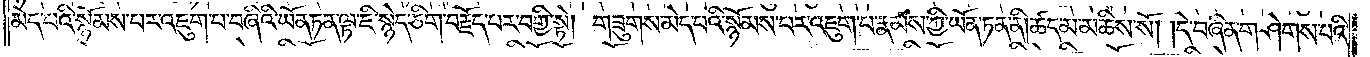མེད་པའི་སྙོམས་པར་འཇུག་པ་བཞིའི་ཡོན་ཏན་ལྟ་ཇི་སྙེད་ཅིག་བརྗོད་པར་བགྱི་སྟེ། གཟུགས་མེད་པའི་སྙོམས་པར་འཇུག་པ་རྣམས་ཀྱི་ཡོན་ཏན་ནི།ཚད་མ་མཆིས་སོ། །དེ་བཞིན་གཤེགས་པའི་
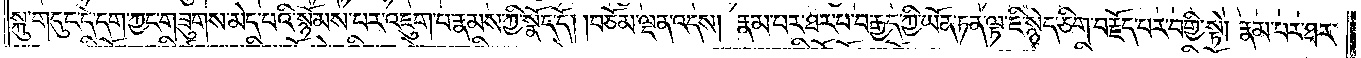སྐུ་གདུང་དེ་དག་ཀྱང་གཟུགས་མེད་པའི་སྙོམས་པར་འཇུག་པ་རྣམས་ཀྱི་སྣོད་དོ། །བཅོམ་ལྡན་འདས། རྣམ་པར་ཐར་པ་བརྒྱད་ཀྱི་ཡོན་ཏན་ལྟ་ཇི་སྙེད་ཅིག་བརྗོད་པར་བགྱི་སྟེ། རྣམ་པར་ཐར་
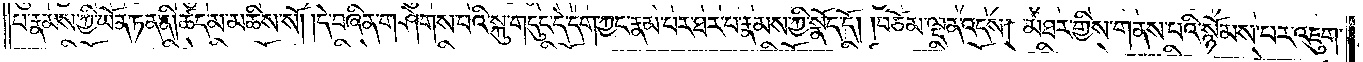པ་རྣམས་ཀྱི་ཡོན་ཏན་ནི།ཚད་མ་མཆིས་སོ། །དེ་བཞིན་གཤེགས་པའི་སྐུ་གདུང་དེ་དག་ཀྱང་རྣམ་པར་ཐར་པ་རྣམས་ཀྱི་སྣོད་དོ། །བཅོམ་ལྡན་འདས། མཐར་གྱིས་གནས་པའི་སྙོམས་པར་འཇུག་
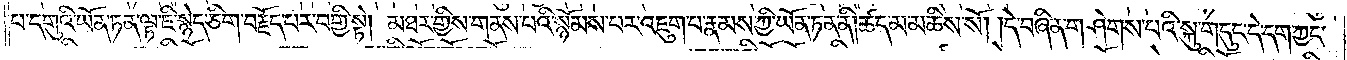པ་དགུའི་ཡོན་ཏན་ལྟ་ཇི་སྙེད་ཅིག་བརྗོད་པར་བགྱི་སྟེ། མཐར་གྱིས་གནས་པའི་སྙོམས་པར་འཇུག་པ་རྣམས་ཀྱི་ཡོན་ཏན་ནི།ཚད་མ་མཆིས་སོ། །དེ་བཞིན་གཤེགས་པའི་སྐུ་གདུང་དེ་དག་ཀྱང་
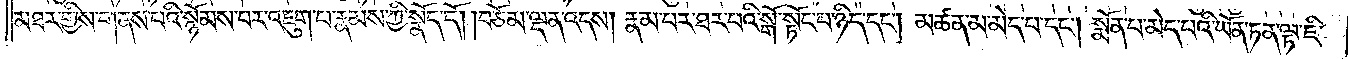མཐར་གྱིས་གནས་པའི་སྙོམས་པར་འཇུག་པ་རྣམས་ཀྱི་སྣོད་དོ། །བཅོམ་ལྡན་འདས། རྣམ་པར་ཐར་པའི་སྒོ་སྟོང་པ་ཉིད་དང༌། མཚན་མ་མེད་པ་དང༌། སྨོན་པ་མེད་པའི་ཡོན་ཏན་ལྟ་ཇི་
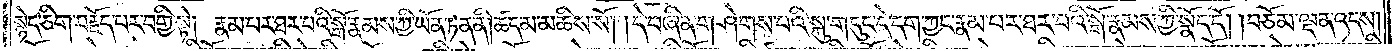སྙེད་ཅིག་བརྗོད་པར་བགྱི་སྟེ། རྣམ་པར་ཐར་པའི་སྒོ་རྣམས་ཀྱི་ཡོན་ཏན་ནི།ཚད་མ་མཆིས་སོ། །དེ་བཞིན་གཤེགས་པའི་སྐུ་གདུང་དེ་དག་ཀྱང་རྣམ་པར་ཐར་པའི་སྒོ་རྣམས་ཀྱི་སྣོད་དོ། །བཅོམ་ལྡན་འདས།
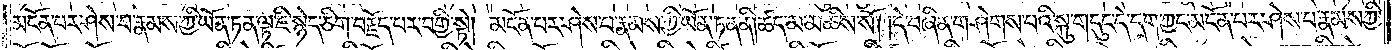མངོན་པར་ཤེས་པ་རྣམས་ཀྱི་ཡོན་ཏན་ལྟ་ཇི་སྙེད་ཅིག་བརྗོད་པར་བགྱི་སྟེ། མངོན་པར་ཤེས་པ་རྣམས་ཀྱི་ཡོན་ཏན་ནི།ཚད་མ་མཆིས་སོ། །དེ་བཞིན་གཤེགས་པའི་སྐུ་གདུང་དེ་དག་ཀྱང་མངོན་པར་ཤེས་པ་རྣམས་ཀྱི་
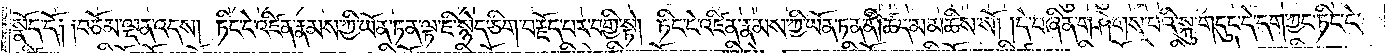སྣོད་དོ༑ ༑བཅོམ་ལྡན་འདས། ཏིང་ངེ་འཛིན་རྣམས་ཀྱི་ཡོན་ཏན་ལྟ་ཇི་སྙེད་ཅིག་བརྗོད་པར་བགྱི་སྟེ། ཏིང་ངེ་འཛིན་རྣམས་ཀྱི་ཡོན་ཏན་ནི།ཚད་མ་མཆིས་སོ། །དེ་བཞིན་གཤེགས་པའི་སྐུ་གདུང་དེ་དག་ཀྱང་ཏིང་ངེ་
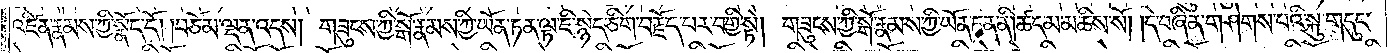འཛིན་རྣམས་ཀྱི་སྣོད་དོ། །བཅོམ་ལྡན་འདས། གཟུངས་ཀྱི་སྒོ་རྣམས་ཀྱི་ཡོན་ཏན་ལྟ་ཇི་སྙེད་ཅིག་བརྗོད་པར་བགྱི་སྟེ། གཟུངས་ཀྱི་སྒོ་རྣམས་ཀྱི་ཡོན་ཏན་ནི། ཚད་མ་མཆིས་སོ། །དེ་བཞིན་གཤེགས་པའི་སྐུ་གདུང་
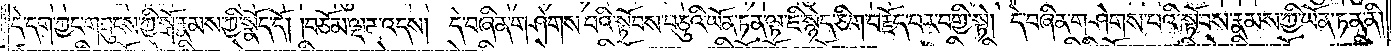དེ་དག་ཀྱང་གཟུངས་ཀྱི་སྒོ་རྣམས་ཀྱི་སྣོད་དོ། །བཅོམ་ལྡན་འདས། དེ་བཞིན་གཤེགས་པའི་སྟོབས་བཅུའི་ཡོན་ཏན་ལྟ་ཇི་སྙེད་ཅིག་བརྗོད་པར་བགྱི་སྟེ། དེ་བཞིན་གཤེགས་པའི་སྟོབས་རྣམས་ཀྱི་ཡོན་ཏན་ནི།
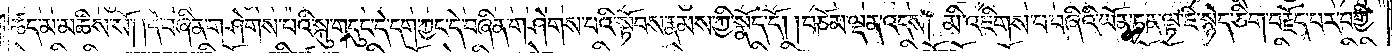ཚད་མ་མཆིས་སོ། །དེ་བཞིན་གཤེགས་པའི་སྐུ་གདུང་དེ་དག་ཀྱང་དེ་བཞིན་གཤེགས་པའི་སྟོབས་རྣམས་ཀྱི་སྣོད་དོ། །བཅོམ་ལྡན་འདས། མི་འཇིགས་པ་བཞིའི་ཡོན་ཏན་ལྟ་ཇི་སྙེད་ཅིག་བརྗོད་པར་བགྱི་
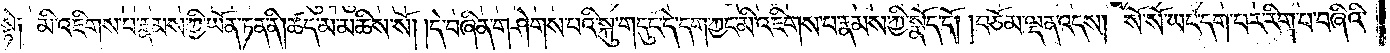སྟེ༑ མི་འཇིགས་པ་རྣམས་ཀྱི་ཡོན་ཏན་ནི།ཚད་མ་མཆིས་སོ། །དེ་བཞིན་གཤེགས་པའི་སྐུ་གདུང་དེ་དག་ཀྱང་མི་འཇིགས་པ་རྣམས་ཀྱི་སྣོད་དོ། །བཅོམ་ལྡན་འདས། སོ་སོ་ཡང་དག་པར་རིག་པ་བཞིའི་
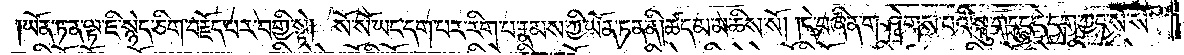ཡོན་ཏན་ལྟ་ཇི་སྙེད་ཅིག་བརྗོད་པར་བགྱི་སྟེ། སོ་སོ་ཡང་དག་པར་རིག་པ་རྣམས་ཀྱི་ཡོན་ཏན་ནི། ཚད་མ་མཆིས་སོ། །དེ་བཞིན་གཤེགས་པའི་སྐུ་གདུང་དེ་དག་ཀྱང་སོ་སོ་
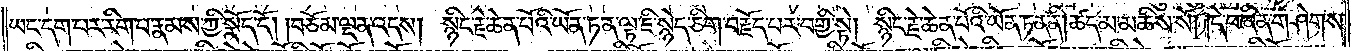ཡང་དག་པར་རིག་པ་རྣམས་ཀྱི་སྣོད་དོ། །བཅོམ་ལྡན་འདས། སྙིང་རྗེ་ཆེན་པོའི་ཡོན་ཏན་ལྟ་ཇི་སྙེད་ཅིག་བརྗོད་པར་བགྱི་སྟེ། སྙིང་རྗེ་ཆེན་པོའི་ཡོན་ཏན་ནི། ཚད་མ་མཆིས་སོ། །དེ་བཞིན་གཤེགས་
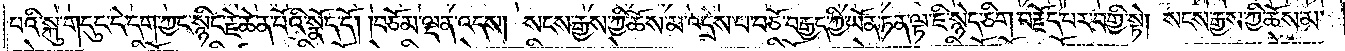པའི་སྐུ་གདུང་དེ་དག་ཀྱང་སྙིང་རྗེ་ཆེན་པོའི་སྣོད་དོ། །བཅོམ་ལྡན་འདས། སངས་རྒྱས་ཀྱི་ཆོས་མ་འདྲེས་པ་བཅོ་བརྒྱད་ཀྱི་ཡོན་ཏན་ལྟ་ཇི་སྙེད་ཅིག་བརྗོད་པར་བགྱི་སྟེ། སངས་རྒྱས་ཀྱི་ཆོས་མ་
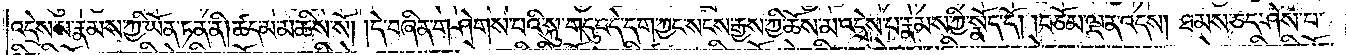འདྲེས་པ་རྣམས་ཀྱི་ཡོན་ཏན་ནི། ཚད་མ་མཆིས་སོ། །དེ་བཞིན་གཤེགས་པའི་སྐུ་གདུང་དེ་དག་ཀྱང་སངས་རྒྱས་ཀྱི་ཆོས་མ་འདྲེས་པ་རྣམས་ཀྱི་སྣོད་དོ། །བཅོམ་ལྡན་འདས། ཐམས་ཅད་ཤེས་པ་
